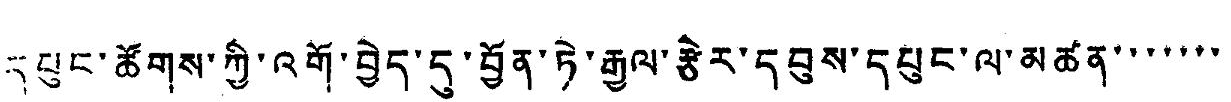དཔུང་ཚོགས་ཀྱི་འགོ་བྱེད་དུ་བྱོན་ཏེ་རྒྱལ་རྩེར་དབུས་དཔུང་ལ་མཚན་་་་་་་
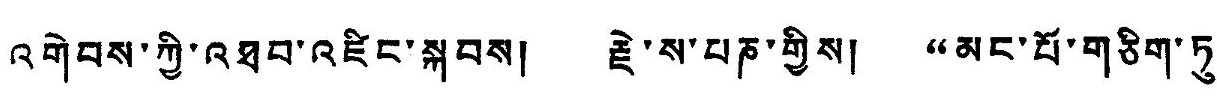འགེབས་ཀྱི་འཐབ་འཛིང་སྐབས། རྗེ་ས་པཎ་གྱིས། “མང་པོ་གཅིག་ཏུ་
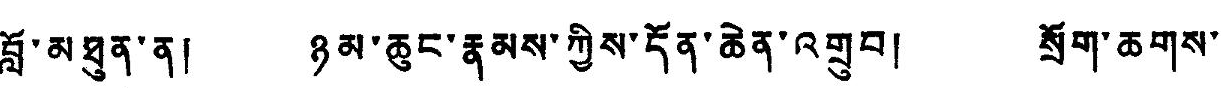བློ་མཐུན་ན། ཉམ་ཆུང་རྣམས་ཀྱིས་དོན་ཆེན་འགྲུབ། སྲོག་ཆགས་
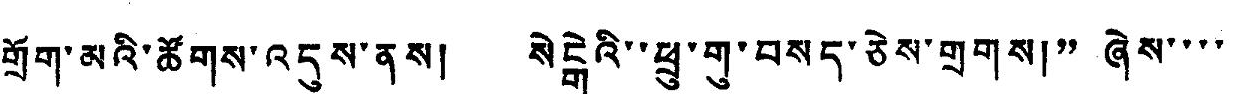གྲོག་མའི་ཚོགས་འདུས་ནས། སེངགེའི་ཕྲུ་གུ་བསད་ཅེས་གྲགས་།” ཞེས་
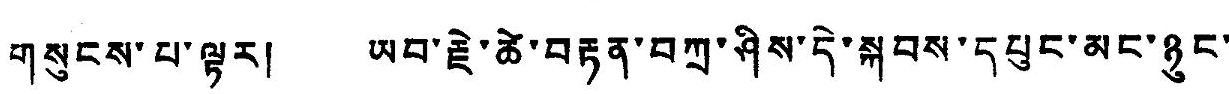གསུངས་པ་ལྟར། ཡབ་རྗེ་ཚེ་བརྟན་བཀྲ་ཤིས་དེ་སྐབས་དཔུང་མང་ཉུང་
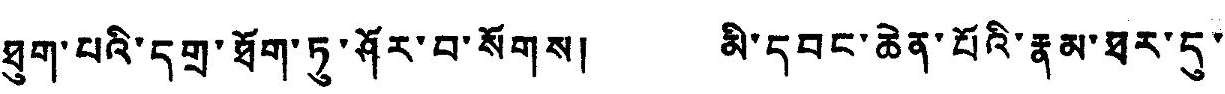ཐུག་པའི་དགྲ་ཐོག་ཏུ་ཤོར་བ་སོགས། མི་དབང་ཆེན་པོའི་རྣམ་ཐར་དུ་
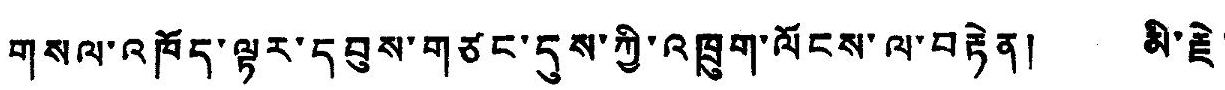གསལ་འཁོད་ལྟར་དབུས་གཙང་དུས་ཀྱི་འཁྲུག་ལོངས་ལ་བརྟེན། མི་རྗེ་
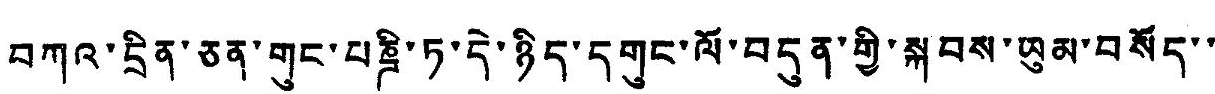བཀའ་དྲིན་ཅན་གུང་པཎྜི་ཏ་དེ་ཉིད་དགུང་ལོ་བདུན་གྱི་སྐབས་ཡུམ་བསོད་་
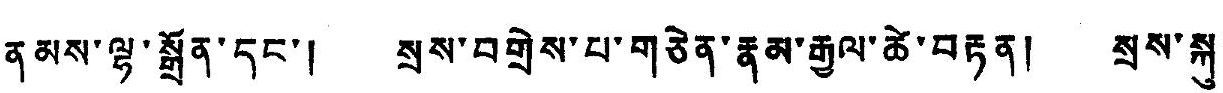ནམས་ལྷ་སྒྲོན་དང་། སྲས་བགྲེས་པ་གཅེན་རྣམ་རྒྱལ་ཚེ་བརྟན། སྲས་སྐུ་
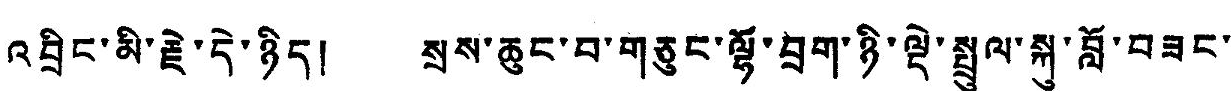འབྲིང་མི་རྗེ་དེ་ཉིད། སྲས་ཆུང་བ་གཅུང་ལྷོ་བྲག་ཉི་ལྡེ་སྤྲུལ་སྐུ་བློ་བཟང་
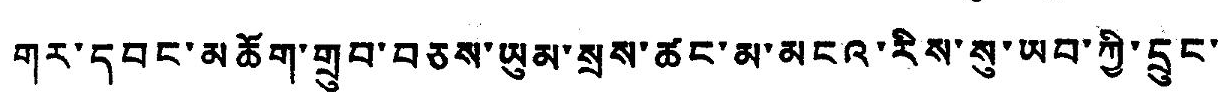གར་དབང་མཆོག་གྲུབ་བཅས་ཡུམ་སྲས་ཚང་མ་མངའ་རིས་སུ་ཡབ་ཀྱི་དྲུང་་
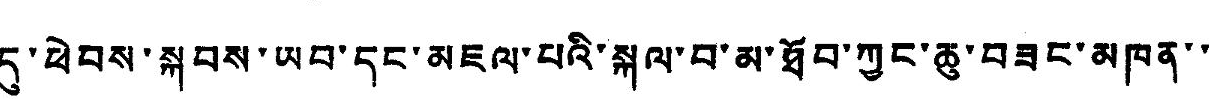དུ་ཕེབས་སྐབས་ཡབ་དང་མཇལ་པའི་སྐལ་བ་མ་ཐོབ་ཀྱང་ཆུ་བཟང་མཁན་་
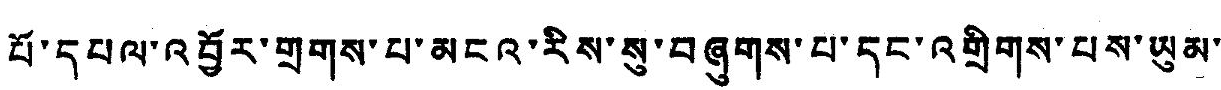པོ་དཔལ་འབྱོར་གྲགས་པ་མངའ་རིས་སུ་བཞུགས་པ་དང་འགྲིགས་པས་ཡུམ་
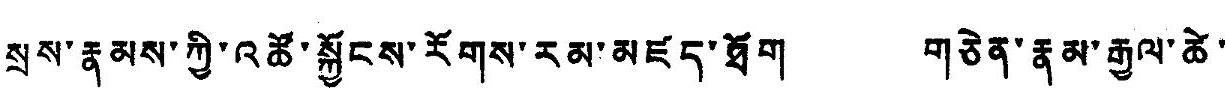སྲས་རྣམས་ཀྱི་འཚོ་སྐྱོངས་རོགས་རམ་མཛད་ཐོག གཅེན་རྣམ་རྒྱལ་ཚེ་
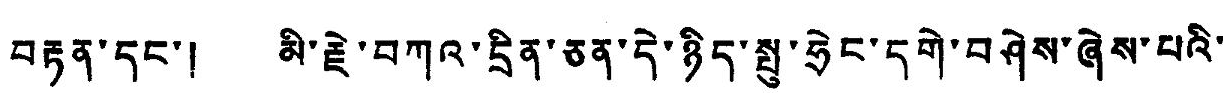བརྟན་དང་། མི་རྗེ་བཀའ་དྲིན་ཅན་དེ་ཉིད་སྤུ་ཧྲེང་དགེ་བཤེས་ཞེས་པའི་
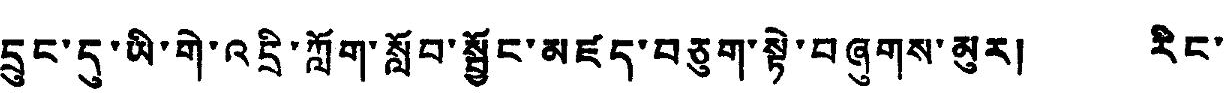དྲུང་དུ་ཡི་གེ་འདྲི་ཀློག་སློབ་སྦྱོང་མཛད་བཅུག་སྟེ་བཞུགས་མུར་། རིང་
